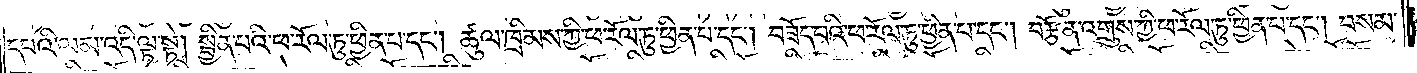དཔའི་ལམ་འདི་ལྟ་སྟེ། སྦྱིན་པའི་ཕ་རོལ་ཏུ་ཕྱིན་པ་དང༌། ཚུལ་ཁྲིམས་ཀྱི་ཕ་རོལ་ཏུ་ཕྱིན་པ་དང༌། བཟོད་པའི་ཕ་རོལ་ཏུ་ཕྱིན་པ་དང༌། བརྩོན་འགྲུས་ཀྱི་ཕ་རོལ་ཏུ་ཕྱིན་པ་དང༌། བསམ་
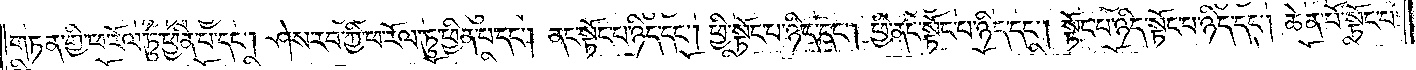གཏན་གྱི་ཕ་རོལ་ཏུ་ཕྱིན་པ་དང༌། ཤེས་རབ་ཀྱི་ཕ་རོལ་ཏུ་ཕྱིན་པ་དང༌། ནང་སྟོང་པ་ཉིད་དང༌། ཕྱི་སྟོང་པ་ཉིད་དང༌། ཕྱི་ནང་སྟོང་པ་ཉིད་དང༌། སྟོང་པ་ཉིད་སྟོང་པ་ཉིད་དང༌། ཆེན་པོ་སྟོང་པ་
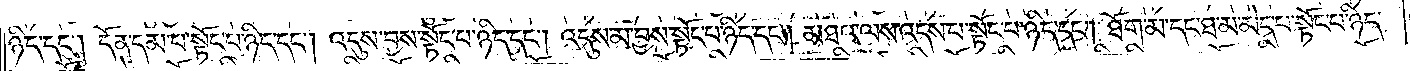ཉིད་དང༌། དོན་དམ་པ་སྟོང་པ་ཉིད་དང༌། འདུས་བྱས་སྟོང་པ་ཉིད་དང༌། འདུས་མ་བྱས་སྟོང་པ་ཉིད་དང༌། མཐའ་ལས་འདས་པ་སྟོང་པ་ཉིད་དང༌། ཐོག་མ་དང་ཐ་མ་མེད་པ་སྟོང་པ་ཉིད་
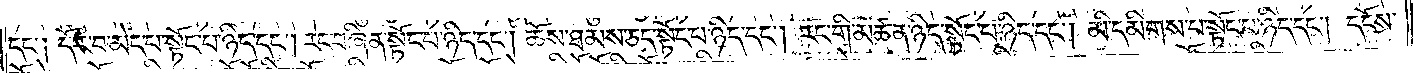དང༌༏ དོར་བ་མེད་པ་སྟོང་པ་ཉིད་དང༌། རང་བཞིན་སྟོང་པ་ཉིད་དང༌། ཆོས་ཐམས་ཅད་སྟོང་པ་ཉིད་དང༌། རང་གི་མཚན་ཉིད་སྟོང་པ་ཉིད་དང༌། མི་དམིགས་པ་སྟོང་པ་ཉིད་དང༌། དངོས་
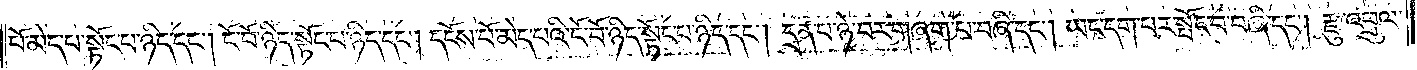པོ་མེད་པ་སྟོང་པ་ཉིད་དང༌། ངོ་བོ་ཉིད་སྟོང་པ་ཉིད་དང༌། དངོས་པོ་མེད་པའི་ངོ་བོ་ཉིད་སྟོང་པ་ཉིད་དང༌། དྲན་པ་ཉེ་བར་བཞག་པ་བཞི་དང༌། ཡང་དག་པར་སྤོང་བ་བཞི་དང༌། རྫུ་འཕྲུལ་
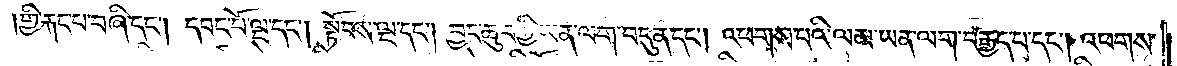གྱི་རྐང་པ་བཞི་དང༌། དབང་པོ་ལྔ་དང༌། སྟོབས་ལྔ་དང༌། བྱང་ཆུབ་ཀྱི་ཡན་ལག་བདུན་དང༌། འཕགས་པའི་ལམ་ཡན་ལག་བརྒྱད་པ་དང༌། འཕགས་
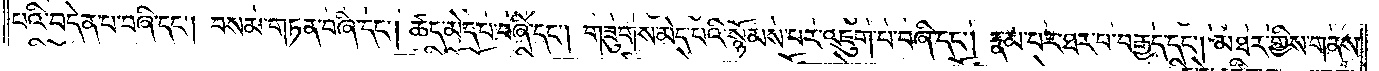པའི་བདེན་པ་བཞི་དང༌། བསམ་གཏན་བཞི་དང༌། ཚད་མེད་པ་བཞི་དང༌། གཟུགས་མེད་པའི་སྙོམས་པར་འཇུག་པ་བཞི་དང༌། རྣམ་པར་ཐར་པ་བརྒྱད་དང༌། མཐར་གྱིས་གནས་
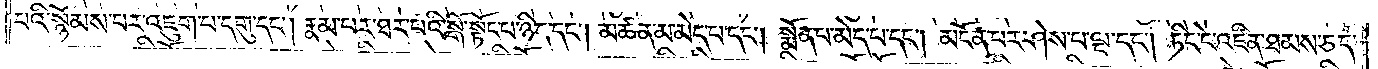པའི་སྙོམས་པར་འཇུག་པ་དགུ་དང༌། རྣམ་པར་ཐར་པའི་སྒོ་སྟོང་པ་ཉིད་དང༌། མཚན་མ་མེད་པ་དང༌། སྨོན་པ་མེད་པ་དང༌། མངོན་པར་ཤེས་པ་ལྔ་དང༌། ཏིང་ངེ་འཛིན་ཐམས་ཅད་
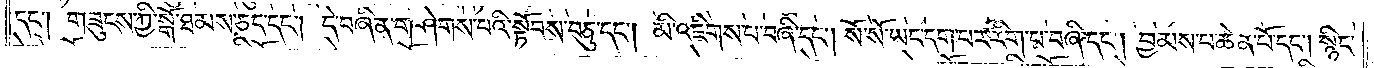དང༌། གཟུངས་ཀྱི་སྒོ་ཐམས་ཅད་དང༌། དེ་བཞིན་གཤེགས་པའི་སྟོབས་བཅུ་དང༌། མི་འཇིགས་པ་བཞི་དང༌། སོ་སོ་ཡང་དག་པར་རིག་པ་བཞི་དང༌། བྱམས་པ་ཆེན་པོ་དང༌། སྙིང་
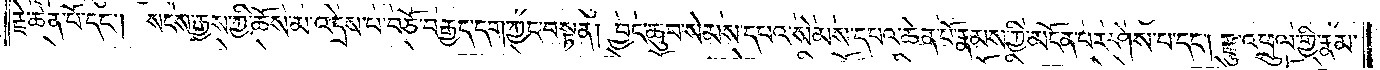རྗེ་ཆེན་པོ་དང༌། སངས་རྒྱས་ཀྱི་ཆོས་མ་འདྲེས་པ་བཅོ་བརྒྱད་དག་ཀྱང་བསྟན། བྱང་ཆུབ་སེམས་དཔའ་སེམས་དཔའ་ཆེན་པོ་རྣམས་ཀྱི་མངོན་པར་ཤེས་པ་དང༌། རྫུ་འཕྲུལ་གྱི་རྣམ་
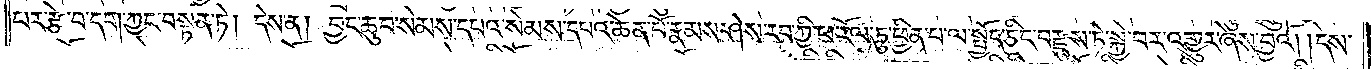པར་རྩེ་བ་དག་ཀྱང་བསྟན་ཏེ། དེས་ན། བྱང་ཆུབ་སེམས་དཔའ་སེམས་དཔའ་ཆེན་པོ་རྣམས་ཤེས་རབ་ཀྱི་ཕ་རོལ་ཏུ་ཕྱིན་པ་ལ་སྤྱོད་ཅིང༌། བརྫུས་ཏེ་སྐྱེ་བར་འགྱུར་ཞེས་བྱའོ། །དེས་
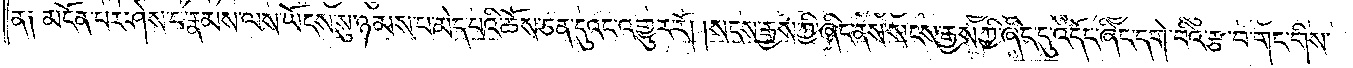ན༏  མངོན་པར་ཤེས་པ་རྣམས་ལས་ཡོངས་སུ་ཉམས་པ་མེད་པའི་ཚས་ཅན་དུའང་འགྱུར་རོ། །སངས་རྒྱས་ཀྱི་ཞིང་ནས་སངས་རྒྱས་ཀྱི་ཞིང་དུ་འདོང་ཞིང་དགེ་བའི་རྩ་བ་གང་གིས་
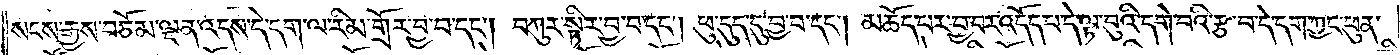སངས་རྒྱས་བཅོམ་ལྡན་འདས་དེ་དག་ལ་རིམ་གྲོར་བྱ་བ་དང༌། བཀུར་སྟིར་བྱ་བ་དང༌། ཕུ་དུད་དུ་བྱ་བ་དང༌། མཆོད་པར་བྱ་བར་འདོད་པ་དེ་ལྟ་བུའི་དགེ་བའི་རྩ་བ་དེ་དག་ཀྱང་ཕུན་
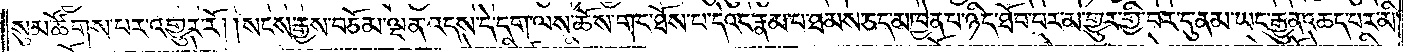སུམ་ཚོགས་པར་འགྱུར་རོ། །སངས་རྒྱས་བཅོམ་ལྡན་འདས་དེ་དག་ལས་ཆོས་གང་ཐོས་པ་དེའང་རྣམ་པ་ཐམས་ཅད་མཁྱེན་པ་ཉིད་ཐོབ་པར་མ་གྱུར་གྱི་བར་དུ་ནམ་ཡང་རྒྱུན་ཆད་པར་མི་
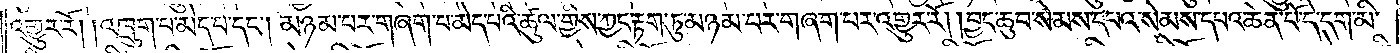འགྱུར་རོ། །འཁྲུག་པ་མེད་པ་དང༌། མཉམ་པར་གཞག་པ་མེད་པའི་ཚུལ་གྱིས་ཀྱང་རྟག་ཏུ་མཉམ་པར་བཞག་པར་འགྱུར་རོ། །བྱང་ཆུབ་སེམས་དཔའ་སེམས་དཔའ་ཆེན་པོ་དེ་དག་མི་
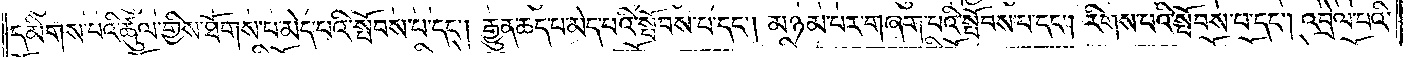དམིགས་པའི་ཚུལ་གྱིས་ཐོགས་པ་མེད་པའི་སྤོབས་པ་དང༌། རྒྱུན་ཆེད་པ་མེད་པའི་སྤོབས་པ་དང༌། མཉམ་པར་གཞག་པའི་སྤོབས་པ་དང༌། རིགས་པའི་སྤོབས་པ་དང༌། འབྲེལ་པའི་
